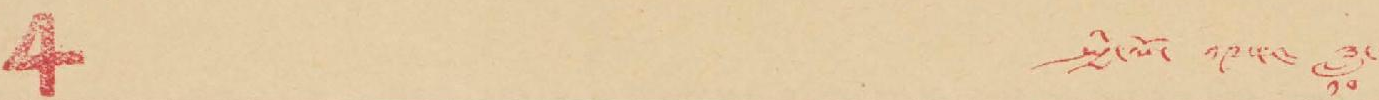4 སྤྱི་ལོ་ ༡༩༥༤ ཟླ་
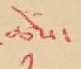ཚེས་
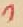༡
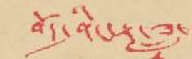བོད་ཤིང་རྟ་ཟླ་
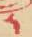༨
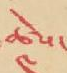ཚེས་
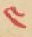༤
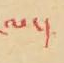ལ་།
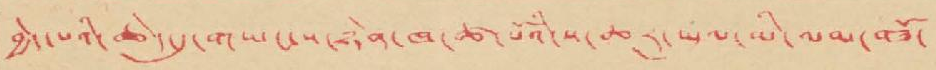བྱེད་པའི་ཆེད་དུ་གཡང་ས་ཉེན་ཁ་ཚ་པོའི་ས་ཆར་ཡུལ་མི་ལམ་བཟོ་
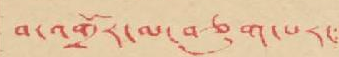བ་འགྲོར་མ་བཅུག་པར་
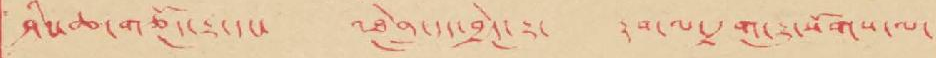ཤིང་ཆ་གཅོད་རྒྱུ་དང་ འཐེན་དྲུད་བྱེད་རྒྱུ་ རྟག་མ་དྲག་རྒྱུ་སོགས་ལ་
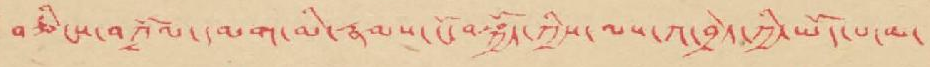བཅིངས་བཀྲོལ་དམག་མི་རྣམས་ངོ་བསྐྱོད་ཀྱིས་ལས་ཀ་བྱེད་ཀྱི་ཡོད་པ་མ་
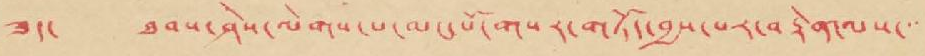ཟད་ ཐབས་ཤེས་ལེགས་པ་མང་པོ་གསར་གཏོད་བྱས་པར་བརྟེན་ལས་་་
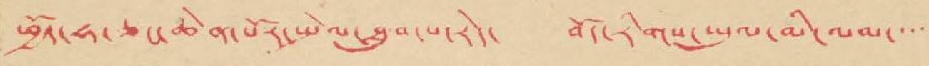ཕྱོད་ཧ་ཅང་ཆེན་པོར་སྤེལ་ཐུབ་པ་རེད་ བོད་རིགས་ཡུལ་མི་ལམ་་་་
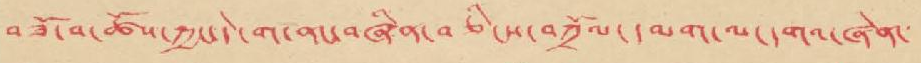བཟོ་བ་ཚོས་ཀྱང་དེ་ག་ནང་བཞིན་བཅིངས་བཀྲོལ་དམག་ལ་དགའ་ཞེན་
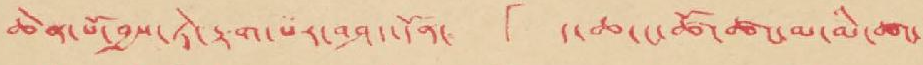ཆེན་པོ་བྱས་ཏེ་རྟག་པར་བཤད་དོན་ 「ད་ཆ་ང་ཚོ་ཚང་མ་མི་ཚང་
